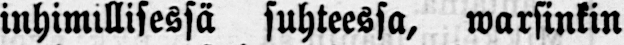inhimillisessä suhteessa, warsinkin
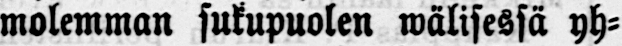molemman sukupuolen wälisessä yh-
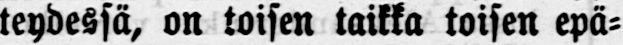teydessä, on toisen taikka toisen epä-
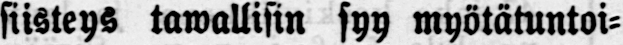siisteys tawallisin syy myötätuntoi-
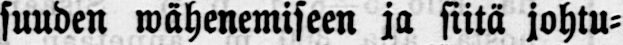suuden wähenemiseen ja siitä johtu-
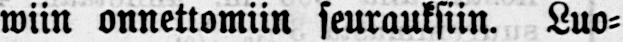wiin onnettomiin seurauksiin. Luo-
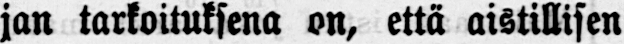jan tarkoituksena on, että aistillisen
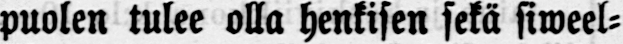puolen tulee olla henkisen sekä siweel-
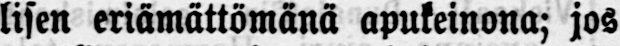lisen eriämättömänä apukeinona; jos
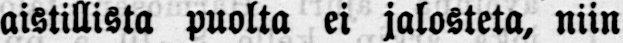aistillista puolta ei jalosteta, niin
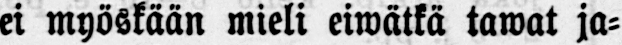ei myöskään mieli eiwätkä tawat ja-
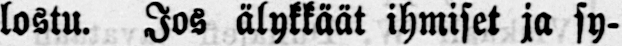lostu. Jos älykkäät ihmiset ja sy-
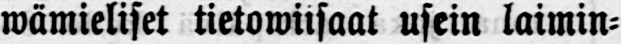wämieliset tietowiisaat usein laimin-
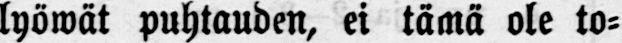lyöwät puhtauden, ei tämä ole to-
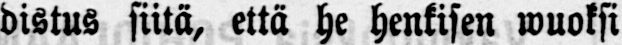distus siitä, että he henkisen wuoksi
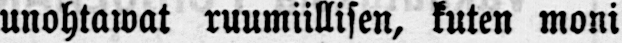unohtawat ruumiillisen, kuten moni
